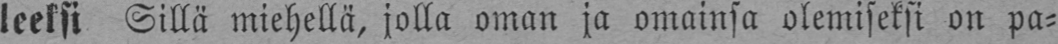leeksi Sillä miehellä, jolla oman ja omainsa olemiseksi on pa-
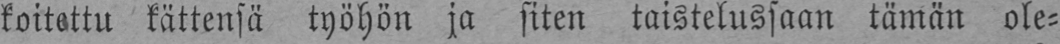koitettu kättensä työhön ja siten taistelussaan tämän ole-
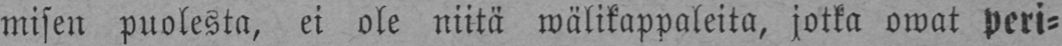misen puolesta, ei ole niitä wälikappaleita, jotka owat peri-
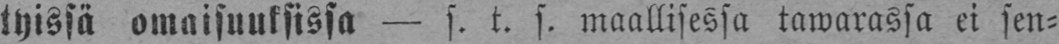tyissä omaisuuksissa — s. t. s. maallisessa tawarassa ei sen-
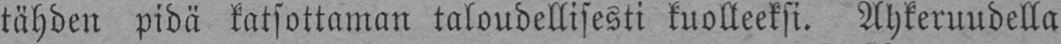tähden pidä katsottaman taloudellisesti kuolleeksi. Ahkeruudella
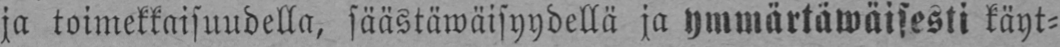ja toimekkaisuudella, säästäwäisyydellä ja ymmärtäwäisesti käyt-
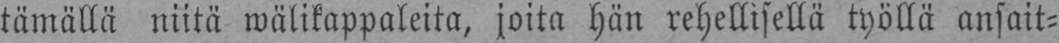tämällä niitä wälikappaleita, joita hän rehellisellä työllä ansait-
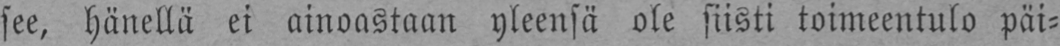see, hänellä ei ainoastaan yleensä ole siisti toimeentulo päi-
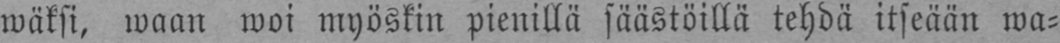wäksi, waan woi myöskin pienillä säästöillä tehdä itseään wa-
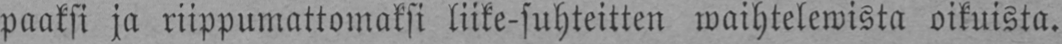paaksi ja riippumattomaksi liike-suhteitten waihtelewista oikuista.
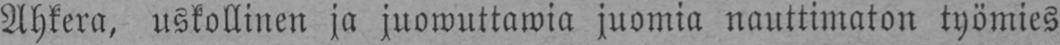Ahkera, uskollinen ja juowuttawia juomia nauttimaton työmies
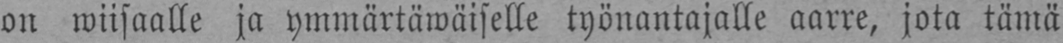on wiisaalle ja ymmärtäwäiselle työnantajalle aarre, jota tämä
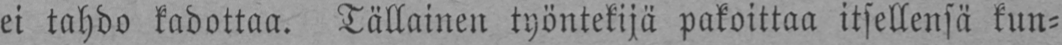ei tahdo kadottaa. Tällainen työntekijä pakoittaa itsellensä kun-
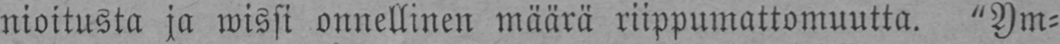nioitusta ja wissi onnellinen määrä riippumattomuutta. "Ym-
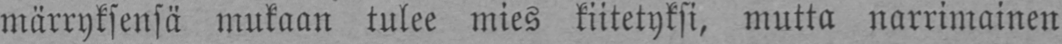märryksensä mukaan tulee mies kiitetyksi, mutta narrimainen
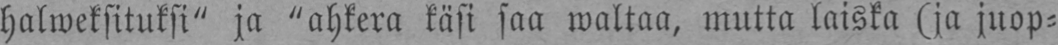halweksituksi" ja "ahkera käsi saa waltaa, mutta laiska (ja juop-
